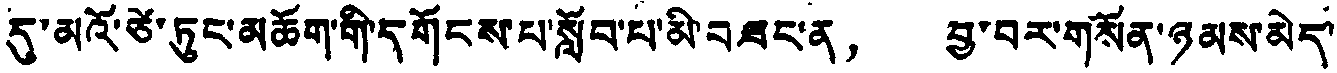དུ་མའོ་ཙེ་ཏུང་མཆོག་གི་དགོངས་པ་སློབ་པ་མི་བཟང་ན， བྱ་བར་གསོན་ཉམས་མེད་
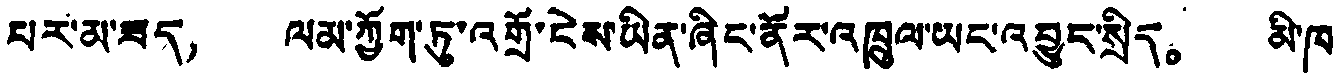པར་མ་ཟད， ལམ་ཀྱོག་ཏུ་འགྲོ་ངེས་ཡིན་ཞིང་ནོར་འཁྲུལ་ཡང་འབྱུང་སྲིད。 མི་ཁ་
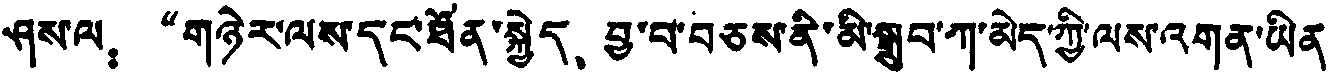ཤས་ལ：“གཉེར་ལས་དང་ཐོན་སྐྱེད、བྱ་བ་བཅས་ནི་མི་སྒྲུབ་ཀ་མེད་ཀྱི་ལས་འགན་ཡིན།
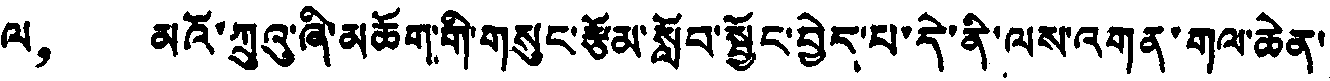ལ， མའོ་ཀྲུའུ་ཞི་མཆོག་གི་གསུང་རྩོམ་སློབ་སྦྱོང་བྱེད་པ་དེ་ནི་ལས་འགན་གལ་ཆེན་
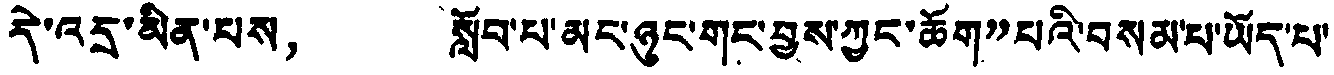དེ་འདྲ་མིན་པས， སློབ་པ་མང་ཉུང་གང་བྱས་ཀྱང་ཆོག་པའི་བསམ་པ་ཡོད་པ་
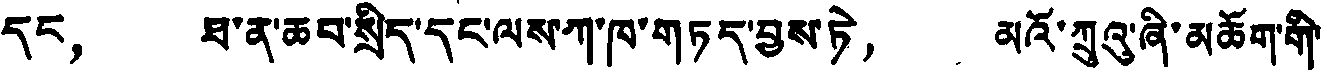དང， ཐ་ན་ཆབ་སྲིད་དང་ལས་ཀ་ཁ་གཏད་བྱས་ཏེ， མའོ་ཀྲུའུ་ཞི་མཆོག་གི་
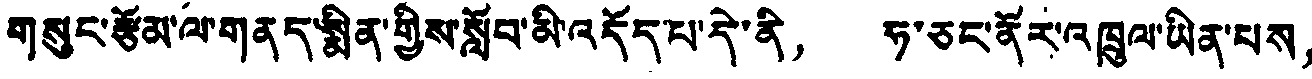གསུང་རྩོམ་ལ་གནད་སྨིན་གྱིས་སློབ་མི་འདོད་པ་དེ་ནི， ཧ་ཅང་ནོར་འཁྲུལ་ཡིན་པས，
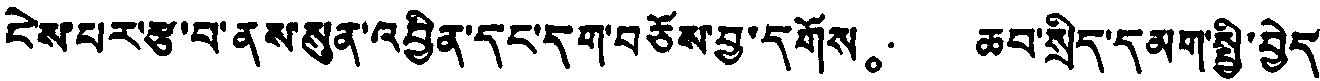ངེས་པར་རྩ་བ་ནས་སུན་འབྱིན་དང་དག་བཅོས་བྱ་དགོས。 ཆབ་སྲིད་དམག་སྤྱི་བྱེད་
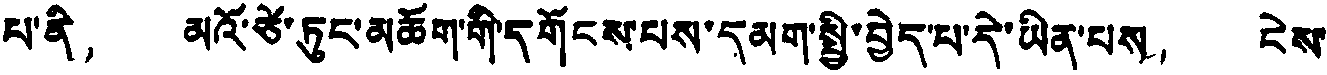པ་ནི， མའོ་ཙེ་ཏུང་མཆོག་གི་དགོངས་པས་དམག་སྤྱི་བྱེད་པ་དེ་ཡིན་པས， ངེས་
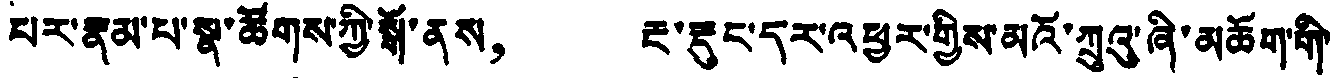པར་རྣམ་པ་སྣ་ཚོགས་ཀྱི་སྒོ་ནས， རྔ་རྡུང་དར་འཕྱར་གྱིས་མའོ་ཀྲུའུ་ཞི་མཆོག་གི་
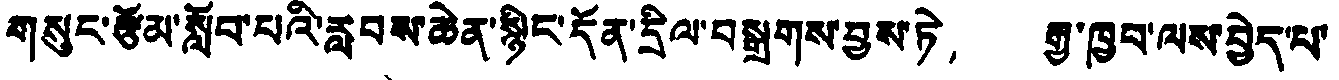གསུང་རྩོམ་སློབ་པའི་རླབས་ཆེན་སྙིང་དོན་དྲིལ་བསྒྲགས་བྱས་ཏེ， རྒྱ་ཁྱབ་ལས་བྱེད་པ་
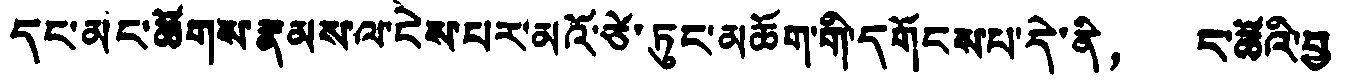དང་མང་ཚོགས་རྣམས་ལ་ངེས་པར་མའོ་ཙེ་ཏུང་མཆོག་གི་དགོངས་པ་དེ་ནི， ང་ཚོའི་བྱ་
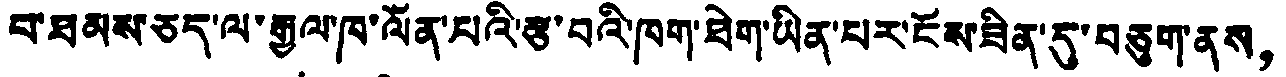བ་ཐམས་ཅད་ལ་རྒྱལ་ཁ་ལོན་པའི་རྩ་བའི་ཁག་ཐེག་ཡིན་པར་ངོས་ཟིན་དུ་བཅུག་ནས，
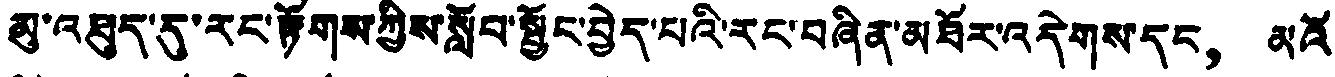མུ་འཐུད་དུ་རང་རྟོགས་ཀྱིས་སློབ་སྦྱོང་བྱེད་པའི་རང་བཞིན་མཐོར་འདེགས་དང， མའོ་
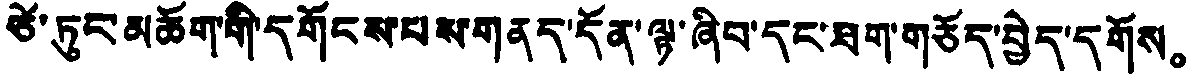ཙེ་ཏུང་མཆོག་གི་དགོངས་པས་གནད་དོན་ལྟ་ཞིབ་དང་ཐག་གཅོད་བྱེད་དགོས。
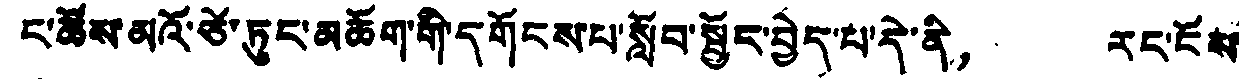ང་ཚོས་མའོ་ཙེ་ཏུང་མཆོག་གི་དགོངས་པ་སློབ་སྦྱོང་བྱེད་པ་དེ་ནི， རང་ངོས་
